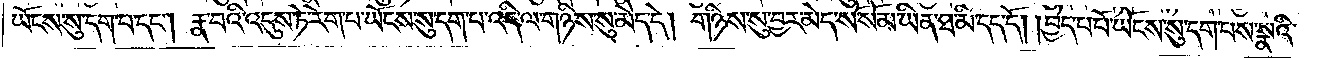ཡོངས་སུ་དག་པ་དང༌། རྣ་བའི་འདུས་ཏེ་རེག་པ་ཡོངས་སུ་དག་པ་འདི་ལ་གཉིས་སུ་མེད་དེ། གཉིས་སུ་བྱར་མེད་སོ་སོ་མ་ཡིན་ཐ་མི་དད་དོ། །བྱེད་པ་པོ་ཡོངས་སུ་དག་པས་སྣའི་
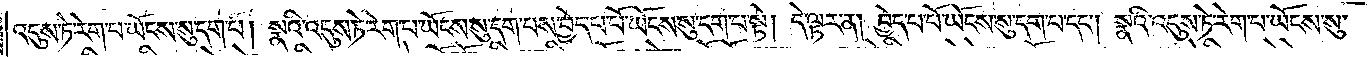འདུས་ཏེ་རེག་པ་ཡོངས་སུ་དག་པ། སྣའི་འདུས་ཏེ་རེག་པ་ཡོངས་སུ་དག་པས་བྱེད་པ་པོ་ཡོངས་སུ་དག་པ་སྟེ། དེ་ལྟར་ན། བྱེད་པ་པོ་ཡོངས་སུ་དག་པ་དང༌། སྣའི་འདུས་ཏེ་རེག་པ་ཡོངས་སུ་
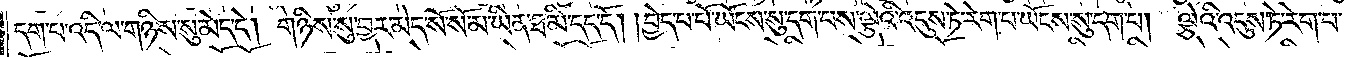དག་པ་འདི་ལ་གཉིས་སུ་མེད་དེ། གཉིས་སུ་བྱར་མེད་སོ་སོ་མ་ཡིན་ཐ་མི་དད་དོ། །བྱེད་པ་པོ་ཡོངས་སུ་དག་པས་ལྕེའི་འདུས་ཏེ་རེག་པ་ཡོངས་སུ་དག་པ། ལྕེའི་འདུས་ཏེ་རེག་པ་
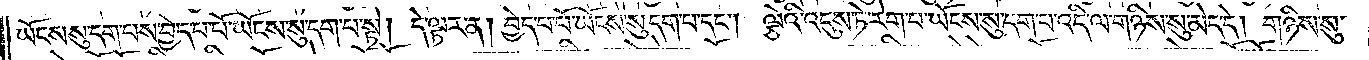ཡོངས་སུ་དག་པས་བྱེད་པ་པོ་ཡོངས་སུ་དག་པ་སྟེ། དེ་ལྟར་ན། བྱེད་པ་པོ་ཡོངས་སུ་དག་པ་དང༌། ལྕེའི་འདུས་ཏེ་རེག་པ་ཡོངས་སུ་དག་པ་འདི་ལ་གཉིས་སུ་མེད་དེ། གཉིས་སུ་
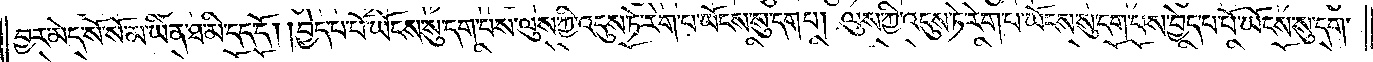བྱར་མེད་སོ་སོ་མ་ཡིན་ཐ་མི་དད་དོ། །བྱེད་པ་པོ་ཡོངས་སུ་དག་པས་ལུས་ཀྱི་འདུས་ཏེ་རེག་པ་ཡོངས་སུ་དག་པ། ལུས་ཀྱི་འདུས་ཏེ་རེག་པ་ཡོངས་སུ་དག་པས་བྱེད་པ་པོ་ཡོངས་སུ་དག་
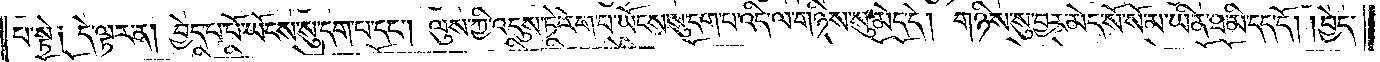པ་སྟེ༑ དེ་ལྟར་ན། བྱེད་པ་པོ་ཡོངས་སུ་དག་པ་དང༌། ལུས་ཀྱི་འདུས་ཏེ་རེག་པ་ཡོངས་སུ་དག་པ་འདི་ལ་གཉིས་སུ་མེད་དེ། གཉིས་སུ་བྱར་མེད་སོ་སོ་མ་ཡིན་ཐ་མི་དད་དོ། །བྱེད་
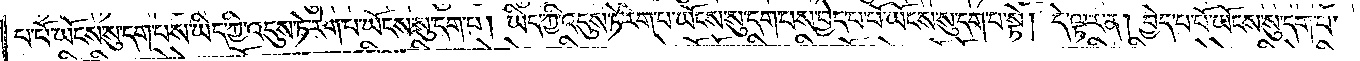པ་པོ་ཡོངས་སུ་དག་པས་ཡིད་ཀྱི་འདུས་ཏེ་རེག་པ་ཡོངས་སུ་དག་པ། ཡིད་ཀྱི་འདུས་ཏེ་རེག་པ་ཡོངས་སུ་དག་པས་བྱེད་པ་པོ་ཡོངས་སུ་དག་པ་སྟེ། དེ་ལྟར་ན། བྱེད་པ་པོ་ཡོངས་སུ་དག་པ་
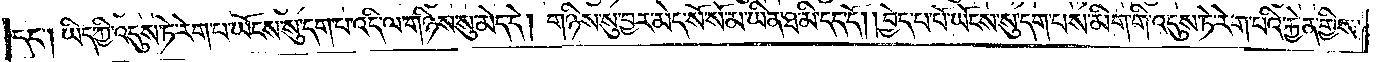དང༌། ཡིད་ཀྱི་འདུས་ཏེ་རེག་པ་ཡོངས་སུ་དག་པ་འདི་ལ་གཉིས་སུ་མེད་དེ། གཉིས་སུ་བྱར་མེད་སོ་སོ་མ་ཡིན་ཐ་མི་དད་དོ། །བྱེད་པ་པོ་ཡོངས་སུ་དག་པས་མིག་གི་འདུས་ཏེ་རེག་པའི་རྐྱེན་གྱིས་
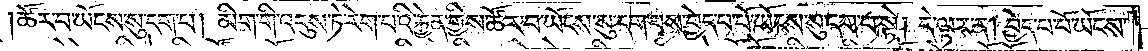ཚོར་བ་ཡོངས་སུ་དག་པ། མིག་གི་འདུས་ཏེ་རེག་པའི་རྐྱེན་གྱིས་ཚོར་བ་ཡོངས་སུ་དག་པས་བྱེད་པ་པོ་ཡོངས་སུ་དག་པ་སྟེ། དེ་ལྟར་ན། བྱེད་པ་པོ་ཡོངས་
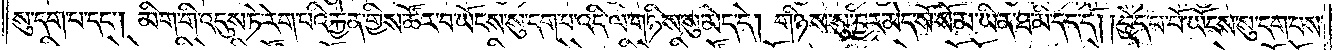སུ་དག་པ་དང༌། མིག་གི་འདུས་ཏེ་རེག་པའི་རྐྱེན་གྱིས་ཚོར་བ་ཡོངས་སུ་དག་པ་འདི་ལ་གཉིས་སུ་མེད་དེ། གཉིས་སུ་བྱར་མེད་སོ་སོ་མ་ཡིན་ཐ་མི་དད་དོ། །བྱེད་པ་པོ་ཡོངས་སུ་དག་པས་
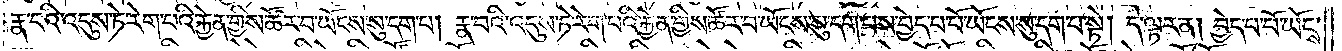རྣ་བའི་འདུས་ཏེ་རེག་པའི་རྐྱེན་གྱིས་ཚོར་པ་ཡོངས་སུ་དག་པ། རྣ་བའི་འདུས་ཏེ་རེག་པའི་རྐྱེན་གྱིས་ཚོར་བ་ཡོངས་སུ་དག་པས་བྱེད་པ་པོ་ཡོངས་སུ་དག་པ་སྟེ། དེ་ལྟར་ན། བྱེད་པ་པོ་ཡོངས་
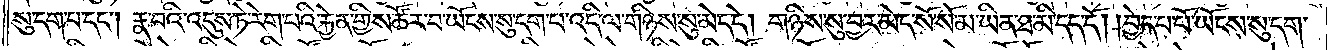སུ་དག་པ་དང༌། རྣ་བའི་འདུས་ཏེ་རེག་པའི་རྐྱེན་གྱིས་ཚོར་བ་ཡོངས་སུ་དག་པ་འདི་ལ་གཉིས་སུ་མེད་དེ། གཉིས་སུ་བྱར་མེད་སོ་སོ་མ་ཡིན་ཐ་མི་དད་དོ། །བྱེད་པ་པོ་ཡོངས་སུ་དག་
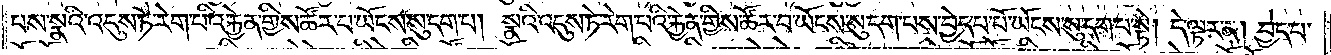པས་སྣའི་འདུས་ཏེ་རེག་པའི་རྐྱེན་གྱིས་ཚོར་བ་ཡོངས་སུ་དག་པ། སྣའི་འདུས་ཏེ་རེག་པའི་རྐྱེན་གྱིས་ཚོར་བ་ཡོངས་སུ་དག་པས་བྱེད་པ་པོ་ཡོངས་སུ་དག་པ་སྟེ། དེ་ལྟར་ན། བྱེད་པ་
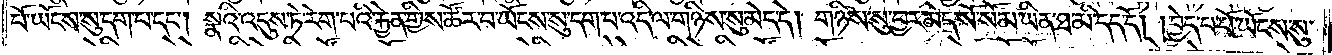པོ་ཡོངས་སུ་དག་པ་དང༌། སྣའི་འདུས་ཏེ་རེག་པའི་རྐྱེན་གྱིས་ཚོར་བ་ཡོངས་སུ་དག་པ་འདི་ལ་གཉིས་སུ་མེད་དེ། གཉིས་སུ་བྱར་མེད་སོ་སོ་མ་ཡིན་ཐ་མི་དད་དོ། །བྱེད་པ་པོ་ཡོངས་སུ་
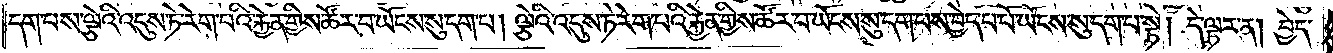དག་པས་ལྕེའི་འདུས་ཏེ་རེག་པའི་རྐྱེན་གྱིས་ཚོར་བ་ཡོངས་སུ་དག་པ། ལྕེའི་འདུས་ཏེ་རེག་པའི་རྐྱེན་གྱིས་ཚོར་བ་ཡོངས་སུ་དག་པས་བྱེད་པ་པོ་ཡོངས་སུ་དག་པ་སྟེ། དེ་ལྟར་ན། བྱེད་
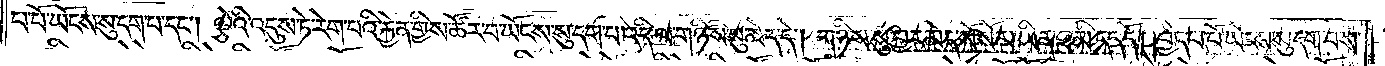པ་པོ་ཡོངས་སུ་དག་པ་དང༌། ལྕེའི་འདུས་ཏེ་རེག་པའི་རྐྱེན་གྱིས་ཚོར་བ་ཡོངས་སུ་དག་པ་འདི་ལ་གཉིས་སུ་མེད་དེ། གཉིས་སུ་བྱར་མེད་སོ་སོ་མ་ཡིན་ཐ་མི་དད་དོ། །བྱེད་པ་པོ་ཡོངས་སུ་དག་པས་
